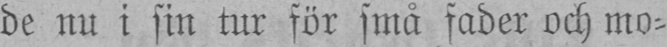de nu i sin tur för små fader och mo-
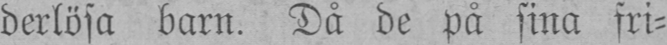derlösa barn. Då de på sina fri-
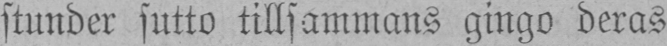stunder sutto tillsammans gingo deras
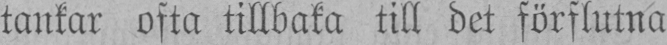tankar ofta tillbaka till det förflutna
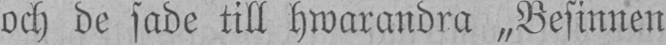och de sade till hwarandra „Besinnen
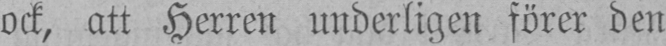ock, att Herren underligen förer den
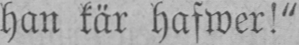han kär hafwer!"
